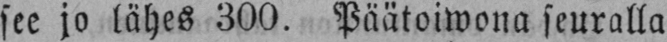see jo lähes 300. Päätoiwona seuralla
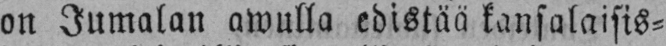on Jumalan awulla edistää kansalaisis-
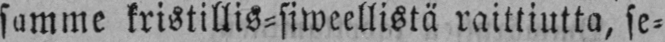samme kristillis-siweellistä raittiutta, se-
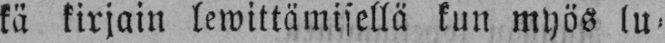kä kirjain lewittämisellä kun myös lu-
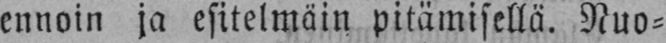ennoin ja esitelmäin pitämisellä. Nuo-
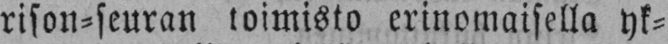rison-seuran toimisto erinomaisella yk-
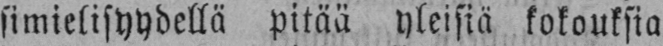simielisyydellä pitää yleisiä kokouksia
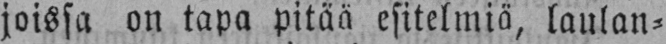joissa on tapa pitää esitelmiä, laulan-
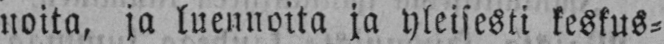noita, ja luennoita ja yleisesti keskus-
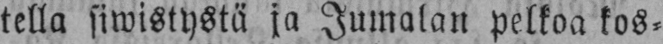tella siwistystä ja Jumalan pelkoa kos-
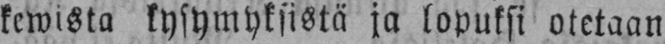kewista kysymyksistä ja lopuksi otetaan
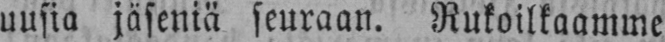uusia jäseniä seuraan. Rukoilkaamme
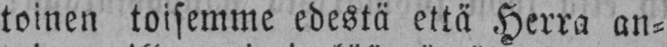toinen toisemme edestä että Herra an-
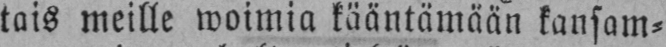tais meille woimia kääntämään kansam-
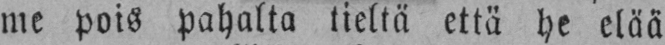me pois pahalta tieltä että he elää
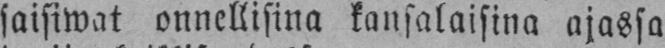saisiwat onnellisina kansalaisina ajassa
